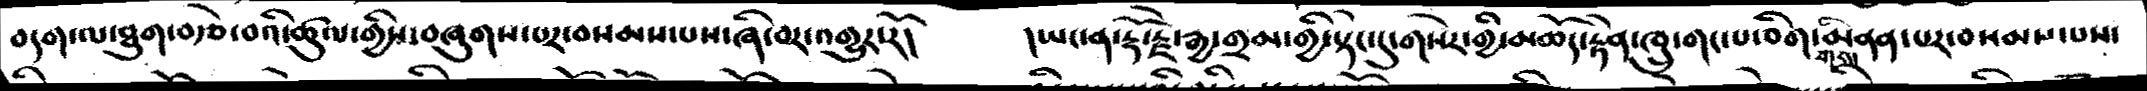བདག་ལ་ཐུག་བརྩེ་བའི་ཚུལ་གྱིས་བཞུགས་པར་བསམས་པས་ཞི་བར་འགྱུར་རོ།   །ཡང་ན་རྡོ་རྗེ་རྒྱ་གྲམ་གྱི་སྟེང་དུ་གསེར་གྱི་མཆོད་རྟེན་ཁྲུ་གང་པ་ཅིག་གིས་མནན་པར་བསམས་པས་
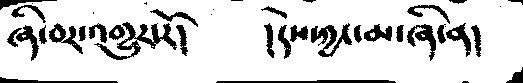ཞི་བར་འགྱུར་རོ།    །དེས་ཀྱང་མ་ཞི་ན།
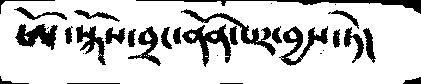ཨོ་སྐོས་བྲང་ནོན་པར་བྱས་ཏེ།
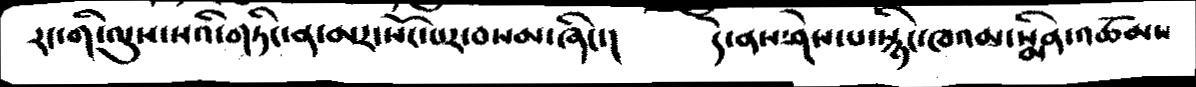རང་གི་ལུས་སའི་གཏིང་ན་མར་སོང་པར་བསམ་ཞིང་།   དེ་ནས་ཤེས་པ་སྙིང་ཁའམ་སྨིན་འཚམས
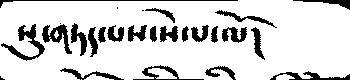སུ་གཏད་པས་སེལ་ལོ།
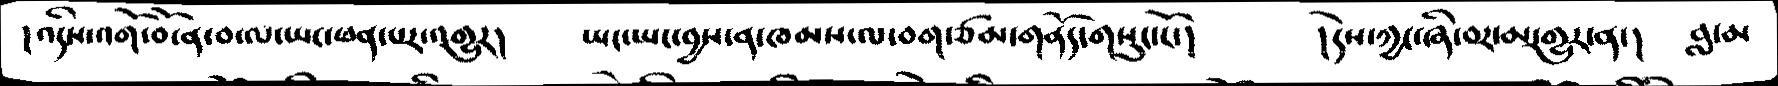།འདིས་འགོ་བོ་ན་བ་ལ་ཡང་ཕན་པར་འགྱུར།   ཡང་ཡང་བྱས་ན་ཁམས་ལ་བག་ཙམ་གནོད་གསུང་ངོ་།   །དེས་ཀྱང་ཞི་བར་མ་གྱུར་ན་།   བླ་མ
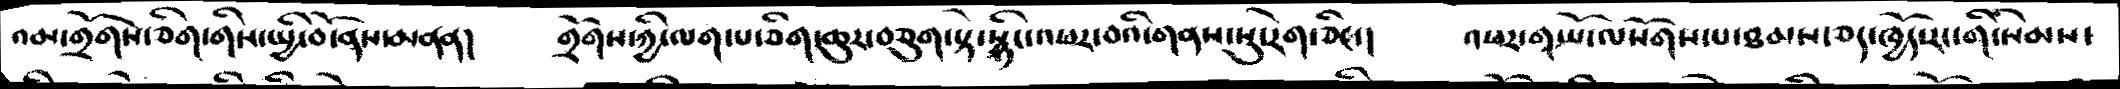འམ་གྲོགས་ཅིག་གིས་སྤྱི་བོ་ནས་མནན།   གྲོགས་ཀྱི་ལག་པ་ཅིག་ཆུར་བཅུག་སྟེ་སྙིང་འཕར་བའི་གནས་སུ་རེག་ཅིང་།   འཕར་གཡོ་ལསོགས་པ་ཐམས་ཅད་ཁྱོད་རང་གི་སེམས་
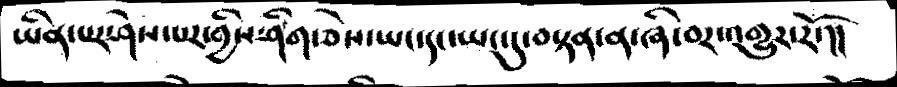ཡིན་པར་ཤེས་པར་གྱིས་ཤིག་ཅེས་ཡང་དང་ཡང་དུ་བསྟན་ན་ཞི་བར་འགྱུར་རོ་།།
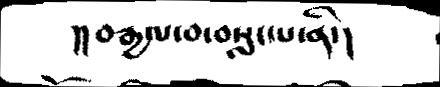།།བརྒྱལ་བ་བསླང་པ་ནི་།
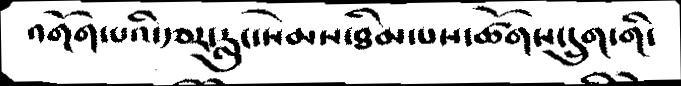འགོག་པའི་རྩར་རླུང་སེམས་ཐིམ་པས་ཚོགས་དྲུག་གི་
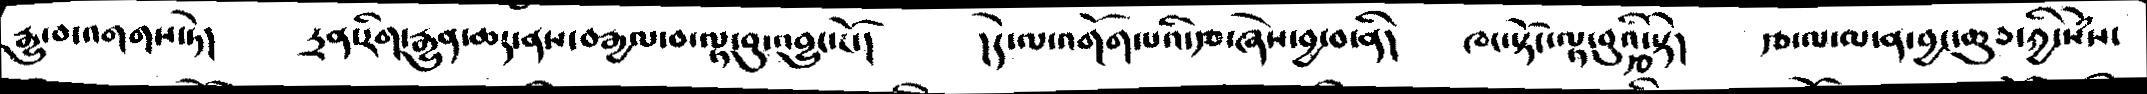རྒྱུ་བ་འགགས་ཏེ།   དྲན་རིག་རྒྱུན་ཆད་ནས་བརྒྱལ་བ་ལྟ་བུ་འབྱུང་ངོ་།   །དེ་ལ་འགོག་པའི་རྩ་ཞེས་བྱ་བ་ནི།  ཁང་སྟོང་ལྟ་བུའི་རྩ་སྟེ།   རྩ་ལ་ལ་ན་བྱང་ཆུབ་ཀྱི་སེཾས་
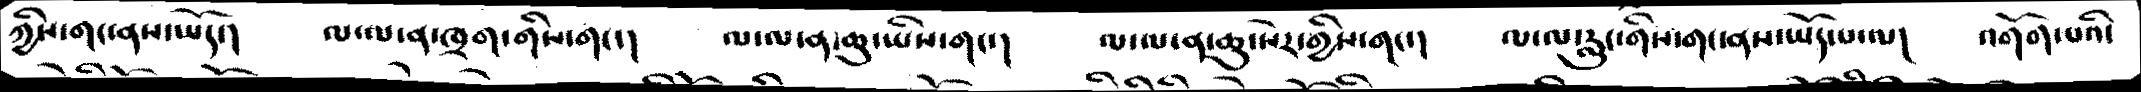ཀྱིས་གང་ནས་ཡོད་།   ལ་ལ་ན་ཁྲག་གིས་གང་།   ལ་ལ་ན་ཆུ་ཡིས་གང་།   ལ་ལ་་ཆུ་སེར་གྱིས་གང་།   ལ་ལ་རླུང་གིས་གང་ནས་ཡོད་པ་ལ།   འགོག་པའི་
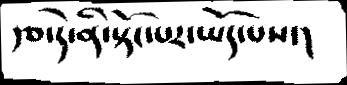རྩ་དེ་ནི་སྟོང་པར་ཡོད་པས་།
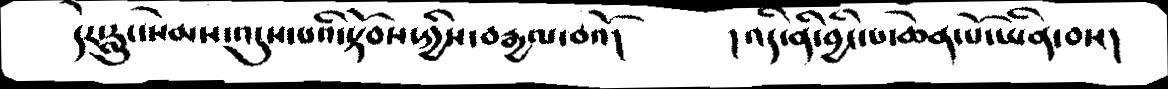དེར་རླུང་སེམས་འདུས་པའི་སྟོབས་ཀྱིས་བརྒྱལ་བའོ།   །འདི་ནི་བྱིང་པ་ཆེན་པོ་ཡིན་བས།
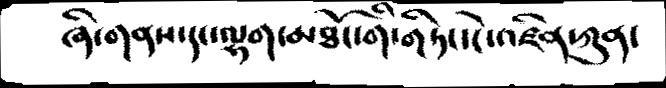ཞི་གནས་དང་ལྷག་མཐོང་གི་གཏིང་ངེ་འཛིན་ཀུན་
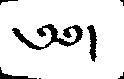༄༅།
